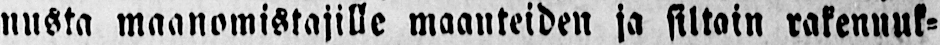nusta maanomistajille maanteiden ja siltain rakennuk-
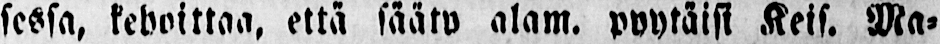sessa, kehoittaa, että sääty alam. pyytäisi Keis. Ma-
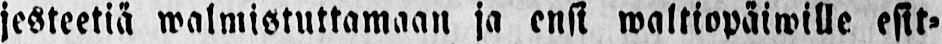jesteetiä walmistuttamaan ja ensi waltiopäiwille esit-
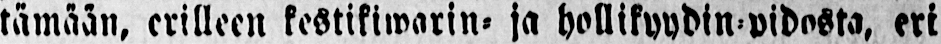tämään, erilleen kestikiwarin- ja hollikyydin-pidosta, eri
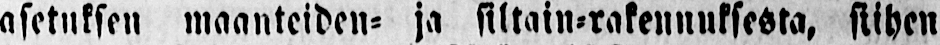asetuksen maanteiden- ja siltain-rakennuksesta, siihen
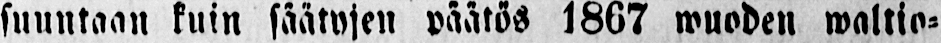suuntaan kuin säätyjen päätös 1867 wuoden waltio-
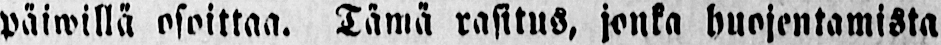päiwillä osoittaa. Tämä rasitus, jonka huojentamista
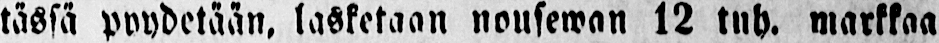tässä pyydetään, lasketaan nouseman 12 tuh. markkaa
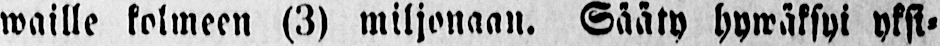waille kolmeen (3) miljonaan. Sääty hywäksyi yksi-
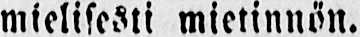mielisesti mietinnön.
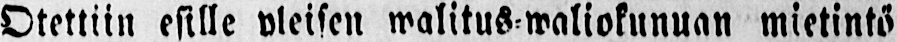Otettiin esille yleisen walitus-waliokunuan mietintö
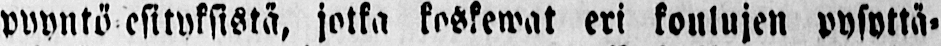pyyntö esityksistä, jotka koskewat eri koulujen pysyttä-
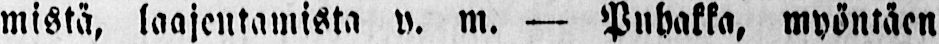mistä, laajentamista y. m. — Puhakka, myöntäen
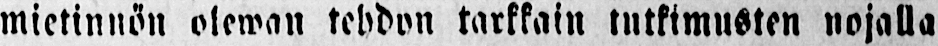mietinnön oleman tehdyn tarkkain tutkimusten nojalla
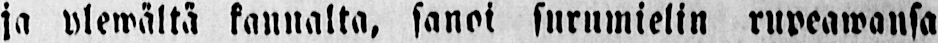ja ylewältä kannalta, sanoi surumielin rupeawansa
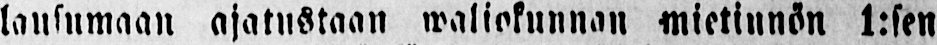lausumaan ajatustaan waliokunnan mietinnön 1:sen
